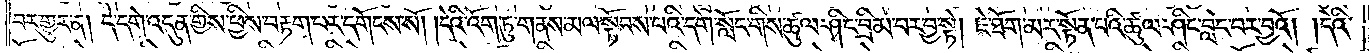བར་གྱུར་ན། དེ་དགེ་འདུན་གྱིས་ཕྱིས་བརྟག་པར་དགོངས་སོ། །དེའི་འོག་ཏུ་གནས་མལ་སྟོབས་པའི་དགེ་སློང་གིས་ཚུལ་ཤིང་བྲིམ་པར་བྱ་སྟེ། ཇེ་ཐོག་མར་སྟོན་པའི་ཚུལ་ཤིང་བླང་བར་བྱའོ། །དེའི་
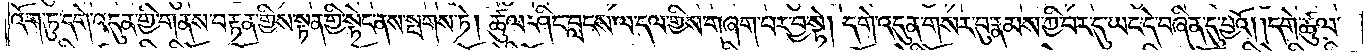འོག་ཏུ་དགེ་འདུན་གྱི་གནས་བརྟན་གྱིས་སྟན་གྱི་སྟེང་ནས་སྤགས་ཏེ། ཚུལ་ཤིང་བླངས་ལ་དལ་གྱིས་གཞག་པར་བྱ་སྟེ། དགེ་འདུན་གསར་བུ་རྣམས་ཀྱི་བར་དུ་ཡང་དེ་བཞིན་དུ་བྱའོ། །དགེ་ཚུལ་
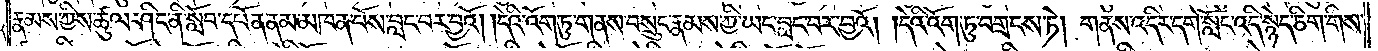རྣམས་ཀྱིས་ཚུལ་ཤིང་ནི་སློབ་དཔོན་ནམ་མཁན་པོས་བླང་བར་བྱའོ། །དེའི་འོག་ཏུ་གནས་བསྲུང་རྣམས་ཀྱི་ཡང་བླང་བར་བྱའོ། །དེའི་འོག་ཏུ་བགྲངས་ཏེ། གནས་འདིར་དགེ་སློང་འདི་སྙེད་ཅིག་གིས་
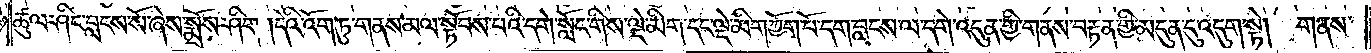ཚུལ་ཤིང་བླངས་སོ་ཞེས་སྨྲོས་ཤིག །དེའི་འོག་ཏུ་གནས་མལ་སྟོབས་པའི་དགེ་སློང་གིས་ལྡེ་མིག་དང་ལྡེ་མིག་ཀྱོག་པོ་དག་བླངས་ལ་དགེ་འདུན་གྱི་གནས་བརྟན་གྱི་མདུན་དུ་འདུག་སྟེ། གནས་
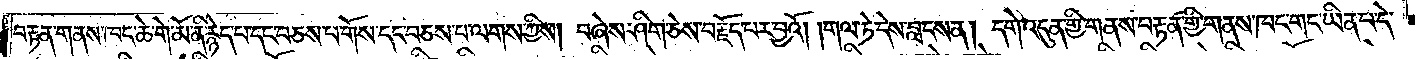བརྟན་གནས་ཁང་ཆེ་གེ་མོ་ནི་རྙེད་པ་དང་བཅས་པ་གོས་དང་བཅས་པ་ལགས་ཀྱིས། བཞེས་ཤིག་ཅེས་བརྗོད་བར་བྱའོ། །གལ་ཏེ་དེས་བླངས་ན། དགེ་འདུན་གྱི་གནས་བརྟན་གྱི་གནས་ཁང་གང་ཡིན་པ་དེ་
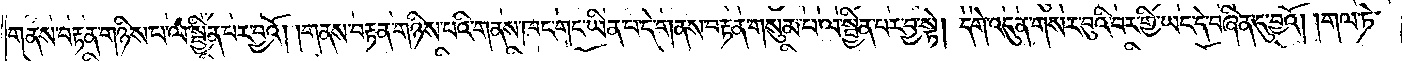གནས་བརྟན་གཉིས་པ་ལ་སྦྱིན་པར་བྱའོ། །གནས་བརྟན་གཉིས་པའི་གནས་ཁང་གང་ཡིན་པ་དེ་གནས་བརྟན་གསུམ་པ་ལ་སྦྱིན་པར་བྱ་སྟེ། དགེ་འདུན་གསར་བུའི་བར་གྱི་ཡང་དེ་བཞིན་དུ་བྱའོ། །གལ་ཏེ་
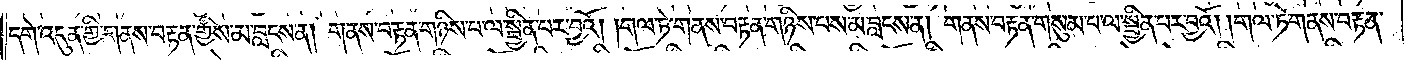དགེ་འདུན་གྱི་གནས་བརྟན་གྱིས་མ་བླངས་ན། གནས་བརྟན་གཉིས་པ་ལ་སྦྱིན་པར་བྱའོ། །གལ་ཏེ་གནས་བརྟན་གཉིས་པས་མ་བླངས་ན། གནས་བརྟན་གསུམ་པ་ལ་སྦྱིན་པར་བྱའོ། །གལ་ཏེ་གནས་བརྟན་
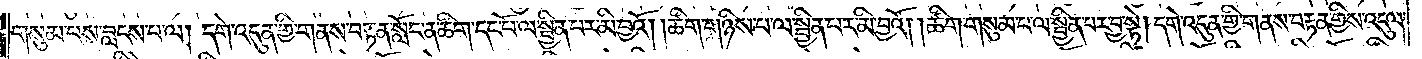གསུམ་པས་བླངས་པ་ལ། དགེ་འདུན་གྱི་གནས་བརྟན་སློང་ན་ཚིག་དང་པོ་ལ་སྦྱིན་པར་མི་བྱའོ། །ཚིག་གཉིས་པ་ལ་སྦྱིན་པར་མི་བྱའོ། །ཚིག་གསུམ་པ་ལ་སྦྱིན་པར་བྱ་སྟེ། དགེ་འདུན་གྱི་གནས་བརྟན་གྱིས་འདུལ་
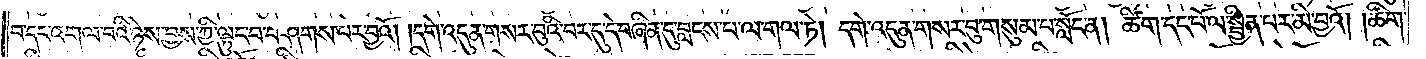བ་དང་འགལ་བའི་ཉེས་བྱས་ཀྱི་ལྟུང་བ་བཤགས་པར་བྱའོ། །དགེ་འདུན་གསར་བུའི་བར་དུ་དེ་བཞིན་དུ་བླངས་པ་ལ་གལ་ཏེ། དགེ་འདུན་གསར་བུ་གསུམ་པ་སློང་ན༑ ཚིག་དང་པོ་ལ་སྦྱིན་པར་མི་བྱའོ། །ཚིག་
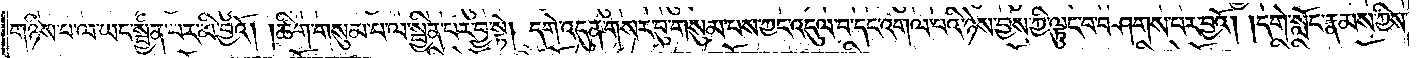གཉིས་པ་ལ་ཡང་སྦྱིན་པར་མི་བྱའོ། །ཚིག་གསུམ་པ་ལ་སྦྱིན་པར་བྱ་སྟེ། དགེ་འདུན་གསར་བུ་གསུམ་པས་ཀྱང་འདུལ་བ་དང་འགལ་བའི་ཉེས་བྱས་ཀྱི་ལྟུང་བ་བཤགས་པར་བྱའོ། །དགེ་སློང་རྣམས་ཀྱིས་
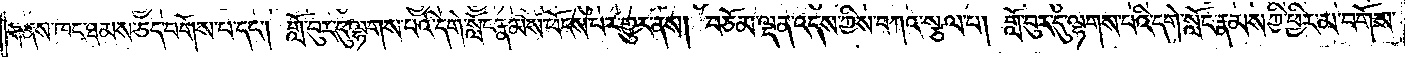གནས་ཁང་ཐམས་ཅད་བགོས་པ་དང༌། གློ་བུར་དུ་ལྷགས་པའི་དགེ་སློང་རྣམས་ཕོངས་པར་གྱུར་ནས། བཅོམ་ལྡན་འདས་ཀྱིས་བཀའ་སྩལ་པ། གློ་བུར་དུ་ལྷགས་པའི་དགེ་སློང་རྣམས་ཀྱི་ཕྱིར་མ་བགོས་
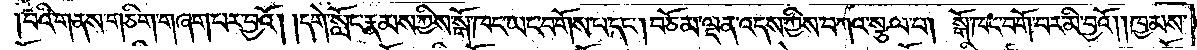བའི་གནས་གཅིག་གཞག་པར་བྱའོ། །དགེ་སློང་རྣམས་ཀྱིས་སྒོ་ཁང་ཡང་བགོས་པ་དང༌། བཅོམ་ལྡན་འདས་ཀྱིས་བཀའ་སྩལ་པ། སྒོ་ཁང་བགོ་བར་མི་བྱའོ། །ཁྱམས་
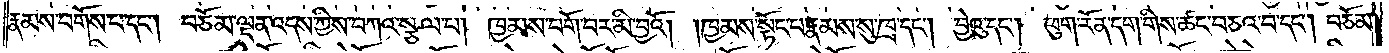རྣམས་བགོས་པ་དང༌། བཅོམ་ལྡན་འདས་ཀྱིས་བཀའ་སྩལ་པ། ཁྱམས་བགོ་བར་མི་བྱའོ། །ཁྱམས་སྟོང་པ་རྣམས་སུ་ཁྲ་དང༌། བྱེའུ་དང༌། ཕུག་རོན་དག་གིས་ཚང་བཅའ་བ་དང༌། བཅོམ་
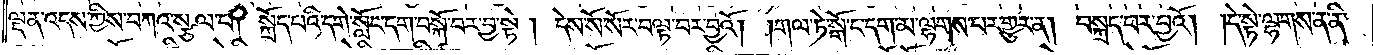ལྡན་འདས་ཀྱིས་བཀའ་སྩལ་པ། སྐྲོད་པའི་དགེ་སློང་དག་བསྐོ་བར་བྱ་སྟེ། དེས་སོ་སོར་བལྟ་བར་བྱའོ། །གལ་ཏེ་སྒོ་ང་དག་མ་ལྷགས་པར་གྱུར་ན། བསྐྲད་པར་བྱའོ། །དེ་སྟེ་ལྷགས་ན་ནི་
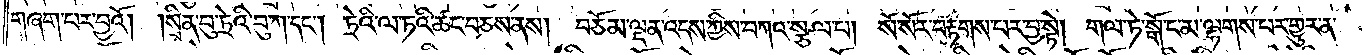གཞག་པར་བྱའོ། །སྲིན་བུ་ཏྲེའི་བུ་ཀ་དང༌། ཏྲེའི་ལ་ཏའི་ཚང་བཅས་ནས། བཅོམ་ལྡན་འདས་ཀྱིས་བཀའ་སྩལ་པ། སོ་སོར་བརྟགས་པར་བྱ་སྟེ། གལ་ཏེ་སྒོ་ང་མ་ལྷགས་པར་གྱུར་ན་
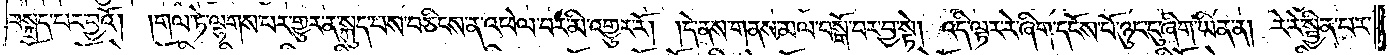བསྐྲད་པར་བྱའོ། །གལ་ཏེ་ལྷགས་པར་གྱུར་ན་སྐུད་པས་བཅིངས་ན་འཕེལ་བར་མི་འགྱུར་རོ། །དེ་ནས་གནས་མལ་བསྒོ་བར་བྱ་སྟེ། འདི་ལྟར་རེ་ཞིག་དངོས་པོ་ཉུང་ངུ་ཞིག་ཡིན་ན། རེ་རེ་སྦྱིན་པར་
